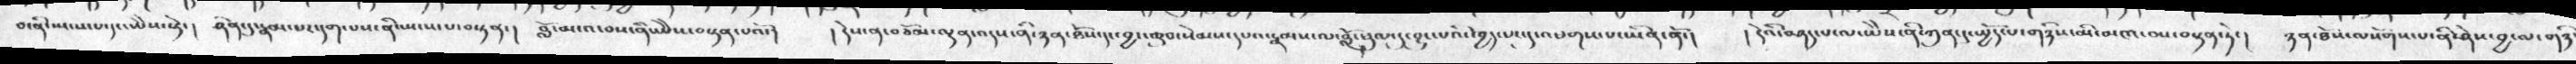བ་ནི་ཡངས་པ་དང་ཡེེས་སྟེ་།  ཤིན་དུ་རྣམ་པར་དག་པས་ནི་སྤངས་པ་བསྟན་།  བློ་མདའ་བས་ནི་ཡེེས་བསྟན་པའོ་།   ། དེས་ན་བཅོམ་ལྡན་འདས་ནི་ཉས་ཐོས་དང་བྱང་ཆུབ་སེམས་དཔའ་རྣམས་ལ་བློ་ཕུལ་དུ་བྱུང་པའི་ཁྱད་པར་དུ་འཕགས་པ་ཡིན་ནོ་།   ། དེའི་བཤད་པ་ལ་ཡེེས་ནི་ཀུན་དུ་སྤྱོད་པ་གཉིས་མི་མངའ་བས་བསྟན་ཏེ་།  ཉན་ཐོས་ལསོགས་པ་ནི་ཤེས་བྱ་ལ་གཉིས
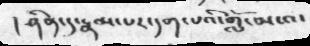། ཤིན་དུ་རྣམ་པར་དག་པའི་གློ་མངའ་
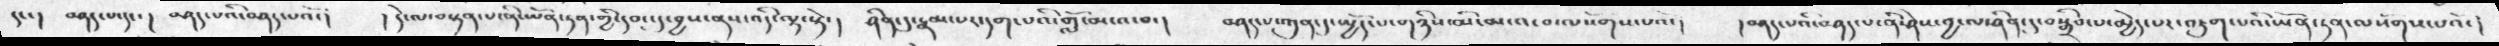དང་།  བཤད་པ་དང་།  བཤད་པའི་བཤད་པའོ་།   ། དེ་ལ་བསྟན་པ་ནི་ཡོན་ཏན་གྱི་དབང་དུ་བྱས་ནས་འདི་ལྟ་སྟེ་།  ཤིན་དུ་རྣམ་པར་དག་པའི་གློ་མངའ་བ་།   བཤད་པ་ཀུན་དུ་སྤྱོད་པ་གཉིས་མི་མངའ་བ་ལསོགས་པའོ་།  །བཤད་པའི་བཤད་པ་ནི་ཤེས་བྱ་ལ་ཤིན་དུ་བསྒྲིབ་པ་མྱེད་པར་འཇུག་པའི་ཡོན་ཏན་ལསོགས་པའོ་།
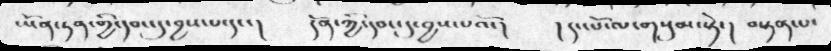ཡོན་ཏན་གྱི་དབང་དུ་བྱས་པ་དང་།   དོན་ཀྱི་དབང་དུ་བྱས་པའོ་།  ། དང་པོ་ལ་གསུམ་སྟེ་།  བསྟན་པ་
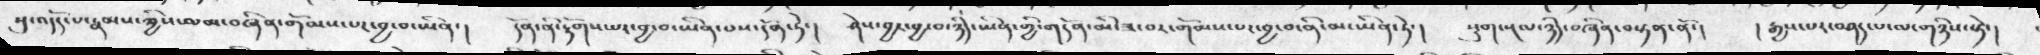སུ་འདོད་པ་རྣམས་ཀྱིས་ལམ་བཞིན་གོམས་པར་བྱ་བ་ཡིན་།   དོན་ནི་རྟོགས་པར་བྱ་བ་ཡིན་པས་དོན་ཏེ་།  ཤེས་བྱར་བྱ་བ་ཉིད་ཡིན་གྱི་གདོན་མི་ཟ་བར་གོམས་པར་བྱ་བ་ནི་མ་ཡིན་ཏེ་།  སྡུག་སྔལ་ཉིད་བཞིན་བསྟན་ནོ་།   ། རྒྱས་པར་བཤད་པ་ལ་གཉིས་སྟེ་།
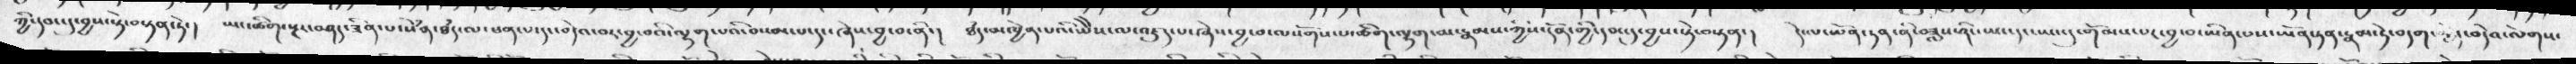ཀྱི་དབང་དུ་བྱས་སྟེ་བསྟན་ཏེ་།   ཡང་ཚིག་སྔར་བཤད་ཟིན་པ་སེཾན་ཐཾད་ལ་ཕན་པ་དང་བདེའ་བར་བྱ་བའི་ལྷག་པའི་བསམ་པ་དང་ཞེས་བྱ་བ་ནི་།  ཐཾད་མཁྱེན་པའི་ཡེེས་ལ་འཇུད་པ་ཞེས་བྱ་བ་ལསོགས་པ་ཚིག་ལྷག་མ་རྣམས་ཀྱིས་དོན་གྱི་དབང་དུ་བྱས་སྟེ་བསྟན་།  དེ་ལ་ཡོན་ཏན་ནི་བཟླས་ཤིང་ཡང་དང་ཡང་དུ་གོམས་པར་བྱ་བ་ཡིན་པས་ཡོན་ཏན་རྣམ་དེ་བདག དེ་བདེའ་ལེགས་
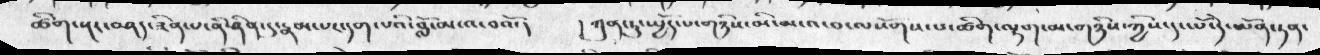ཚིག་སྔར་བཤད་ཟིན་པ་ནི་ཤིན་དུ་རྣམ་པར་དག་པའི་བློ་མངའ་བའོ་།    ། ཀུན་ཏུ་སྤྱོད་པ་གཉིས་མི་མངའ་བ་ལསོགས་པ་ཚིག་ལྷག་མ་གཉིས་ཀྱིས་དང་པོ་ད་ེཡོན་ཏན་
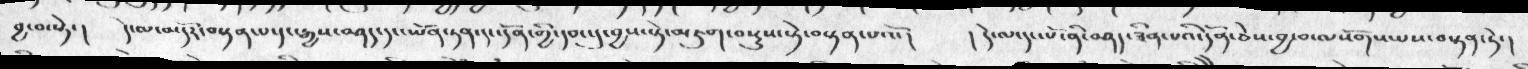བྱ་བ་སྟེ་།  དེ་ལ་མདོར་བསྟན་པ་དང་རྒྱས་བཤད་དང་ཡོན་ཏན་གྱི་དབང་དུ་བྱས་སྟེ་མཇུག་བསྡུས་སྟེ་བསྟན་པའོ་།   ། དེ་ལ་དང་པོ་ནི་བཤད་ཟིན་པའི་དོན་ཅེས་བྱ་བ་ལསོགས་པས་བསྟན་ཏེ་།
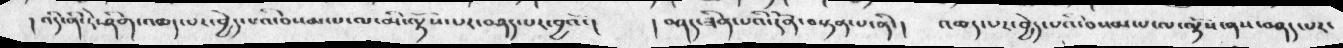། འདི་ནི་རེ་ཤིག་འཆད་པར་བྱེད་པའི་བསམ་་པ་ལ་མི་ལྟོས་པར་བཤད་པར་བྱའོ་།   ། བཤད་ཟིན་པའི་དོན་བསྟན་པ་ནི་།  འཆད་པར་བྱེད་པའི་བསམ་པ་ལ་ལྟོས་ནས་བཤད་པར་
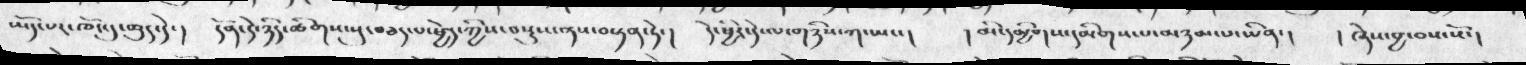ཡོད་པར་ཁོང་དུ་ཆུད་དེ་།   དོན་དེ་ཉིད་ཚིགས་སུ་བཅད་པ་ཕྱེད་ཀྱིས་བསྡུས་ནས་བསྟན་ཏེ་།  དེ་ཕྱིར་དེ་ལ་གཉིས་ཀ་ཡང་།    ། མི་དམྱིགས་དམིགས་པ་མཉམ་པ་ཡིན་།   ། ཞེས་བྱ་བས་སོ་།
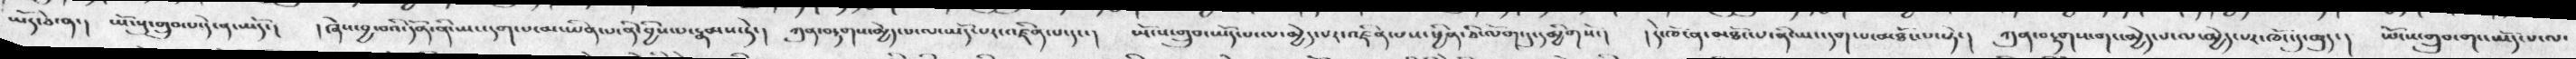ཡོད་ཅེ་ན་།  ཡོངསུ་གྲུབ་པ་དེ་ན་མདོ་།  །ཞེས་བྱ་བའི་དོན་ནི་ཡང་དག་པ་མ་ཡིན་པ་ནི་བྱིས་པ་རྣམས་ཏེ་།   ཀུན་བརྟགས་མྱེད་པ་ལ་ཡོད་པར་འཛིན་པ་དང་།   ཡོངས་གྲུབ་ཡོད་པ་ལ་མྱེད་པར་འཛིན་པས་ཕྱིན་ཅི་ལོག་ཏུ་དམྱིགསོ་།   །དེ་ཁོ་ན་མཐོང་པ་ནི་ཡང་དག་པ་མཐོང་པ་སྟེ་།  ཀུན་བརྟགས་གང་མྱེད་པ་ལ་མྱེད་པར་ཁོང་དུ་ཆུད་།  ཡོངས་གྲུབ་གང་ཡོད་པ་ལ་
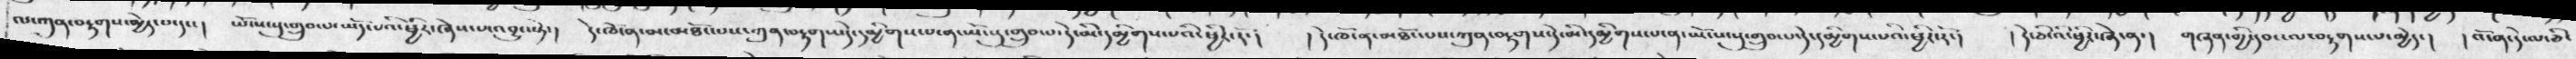ལ་ཀུན་བརྟགས་མྱེད་པ་དང་།  ཡོངས་སུ་གྲུབ་པ་ཡོད་པའི་ཕྱིར་ཞེས་པ་འབྱུང་སྟེ་།  དེ་ཁོ་ན་མ་མཐོང་པས་ཀུན་བརྟགས་དེ་དམྱིགས་པ་ན་ཡོངས་སུ་གྲུབ་དེ་མི་དམྱིགས་པའི་ཕྱིར་རོ་།   ། དེ་ཁོ་ན་མཐོང་པས་ཀུན་བརྟགས་དེ་མི་དམྱིགས་པ་ན་ཡོངས་སུ་གྲུབ་པ་དེ་དམྱིགས་པའི་ཕྱིར་རོ་།  ། དེ་ཅི་འི་ཕྱིར་ཞེ་ན་།   གཞན་གྱི་དབང་ལ་བརྟགས་པ་མྱེད་།  ། འོ་ན་དེ་ཅི་
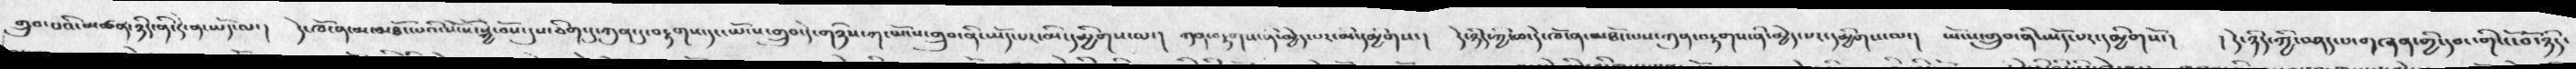གྲུབ་པའི་མཚན་ཉིད་ནི་དེ་ན་ཡོད་ལ་།  དེ་ཁོ་ན་མ་མཐོང་པའི་སོ་སོ་སྐྱེ་བོས་དུས་ཅིག་དུ་ཀུན་དུ་བརྟགས་དང་ཡོངས་གྲུབ་དེ་གཉིས་ཀ་ཡོངས་གྲུབ་ནི་ཡོད་པར་མི་དམྱིགས་ལ་།  ཀུན་བརྟགས་ནི་མྱེད་པར་མི་དམྱིགས་།   དེ་ཉིད་ཀྱི་ཆ་དེ་ཁོ་ན་མཐོང་པས་ཀུན་བརྟགས་ནི་མྱེད་པར་དམྱིགས་པ་།   ཡོངས་གྲུབ་ནི་ཡོད་པར་དམྱིགསོ་།   ། དེ་ཉིད་ཀྱི་བཤད་པ་གཞན་གྱི་དབང་གི་ངོ་བོ་ཉིད་
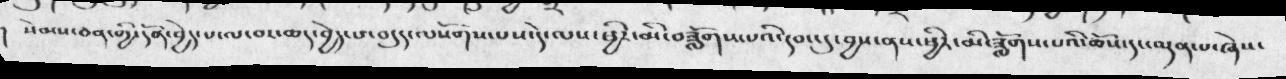། སེམས་ཅན་གྱི་དོན་བྱེད་པ་ལ་བར་ཆད་བྱེད་པ་བདུད་ལསོགས་པས་དེ་ལས་ཕྱིར་མི་བཟློགས་པའི་དབང་དུ་བྱས་ནས་ཕྱིར་མི་ཟློགས་པའི་ཆོས་དང་ལྡན་པ་ཞེས་
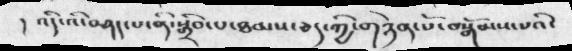།  འདི་འི་བཤད་པ་ནི་སྒྲིབ་པ་ཐམས་ཅད་ཀྱི་གཉེན་པོ་བསྒོམས་པའི་
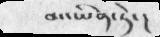མ་ཡིན་ཏེ་།
